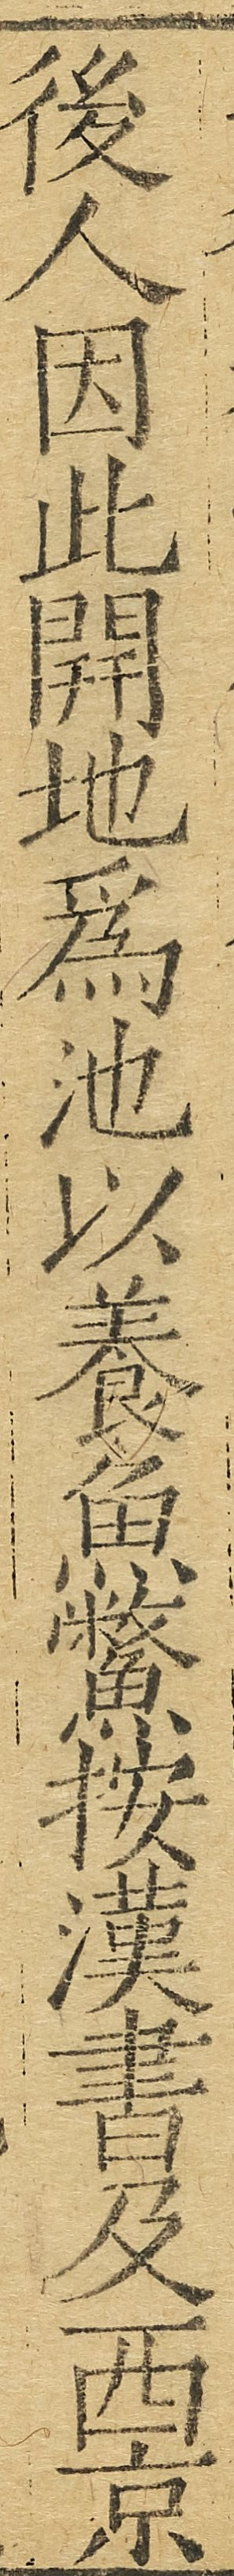後人因此開地為池以養魚鱉按漢書及西京
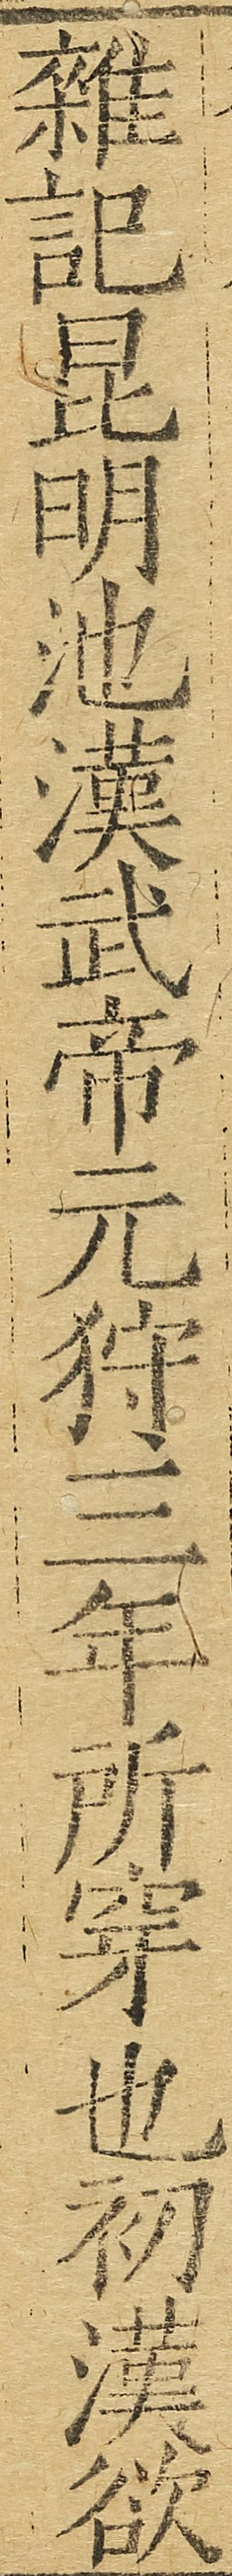雜記昆明池漢武帝元狩三年所穿也初漢欲
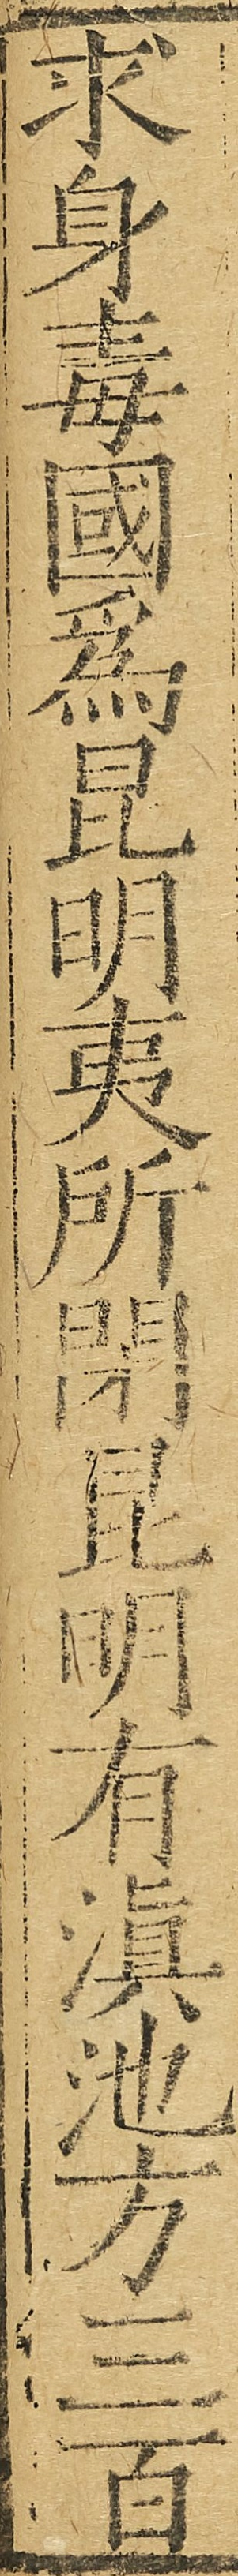求身毒國為昆明夷所閉昆明有滇池方三百
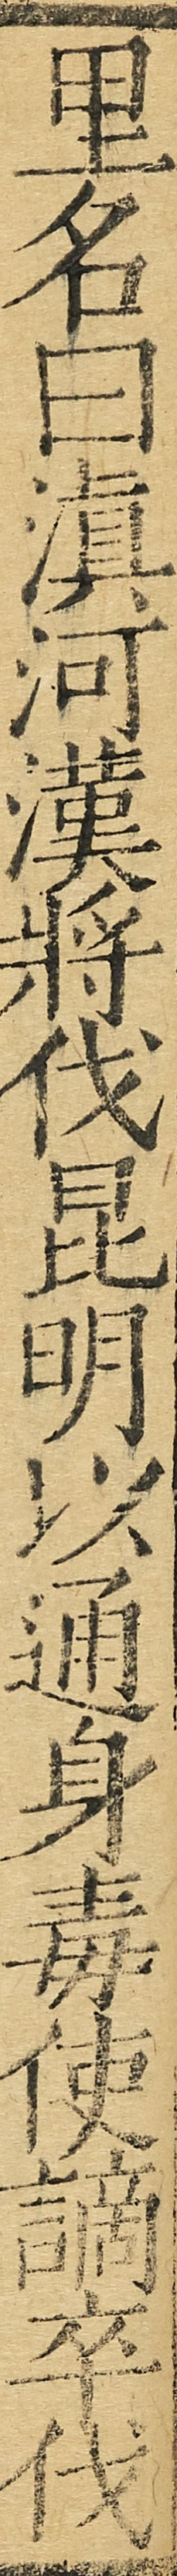里名曰滇河漢將伐昆明以通身毒使謫卒伐
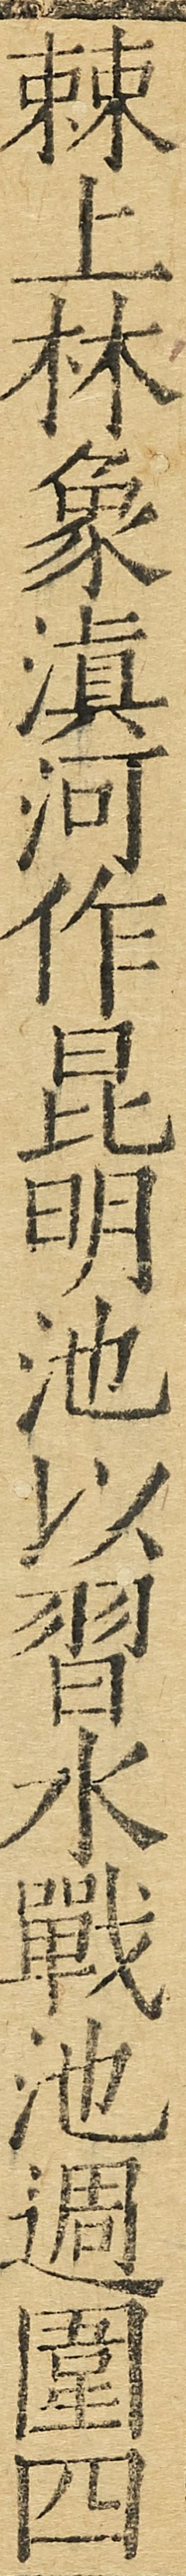棘上林象滇河作昆明池以習水戰池週圍四
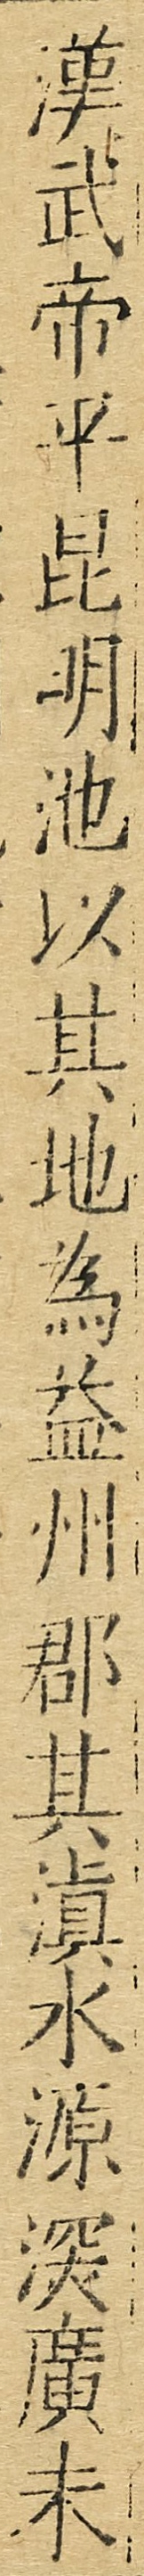漢武帝平昆明池以其地為益州郡其滇水源深廣末
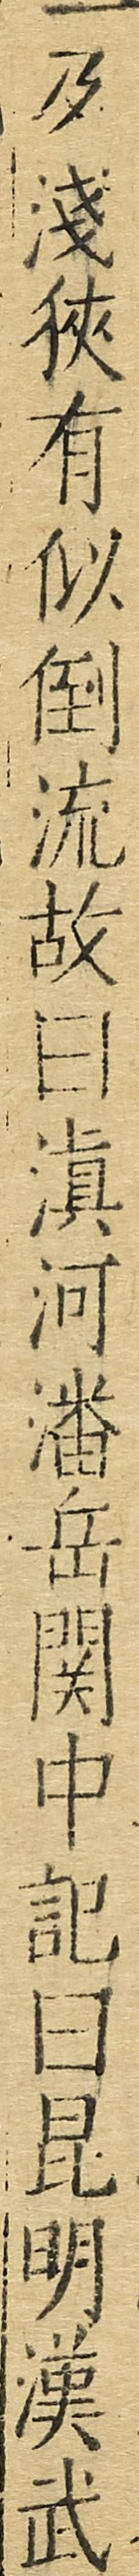及淺狹有似倒流故曰滇河潘岳関中記曰昆明漢武
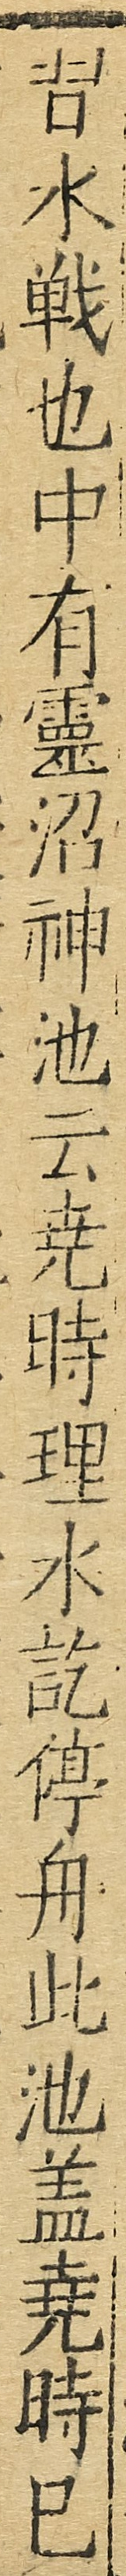習水戰也中有靈沼神池云堯時理水訖停舟此池蓋堯時已
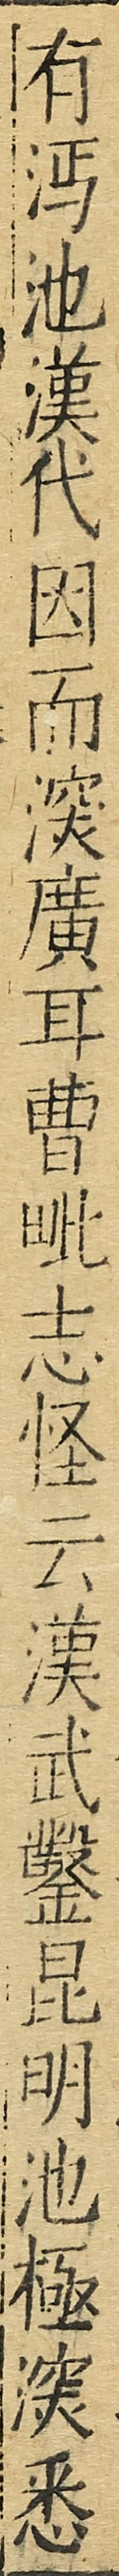有沔池漢代因而深廣耳曹毗志怪云漢武鑿昆明池極深悉
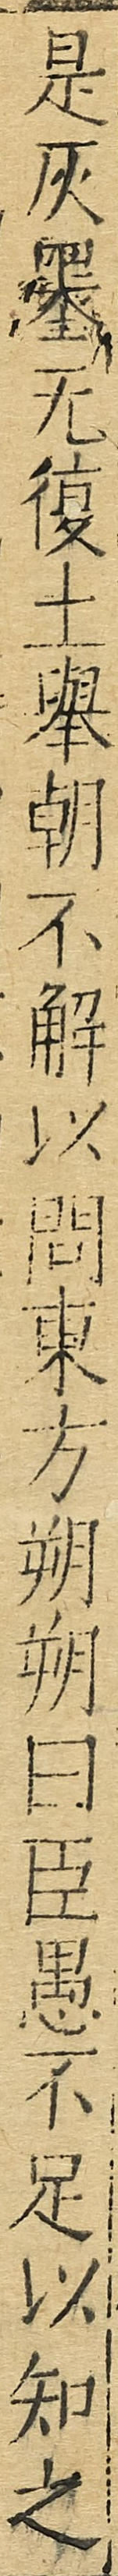是灰墨無復土舉朝不解以問東方朔朔曰臣愚不足以知之
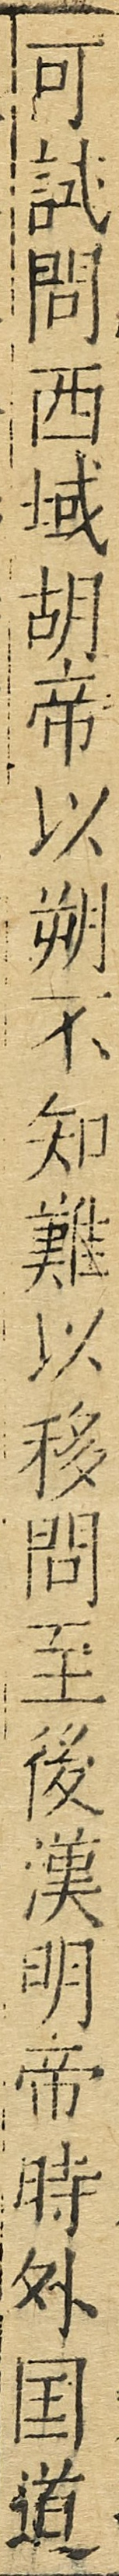可試問西域胡帝以朔不知難以移問至後漢明帝時外國道
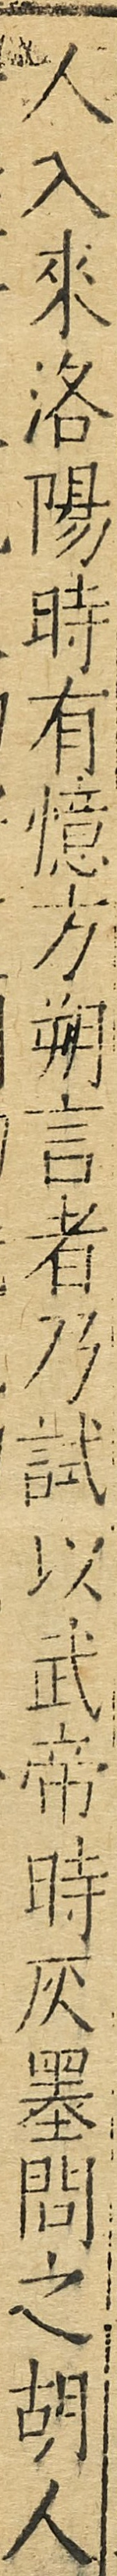人入來洛陽時有憶方朔言者乃試以武帝時灰墨問之胡人
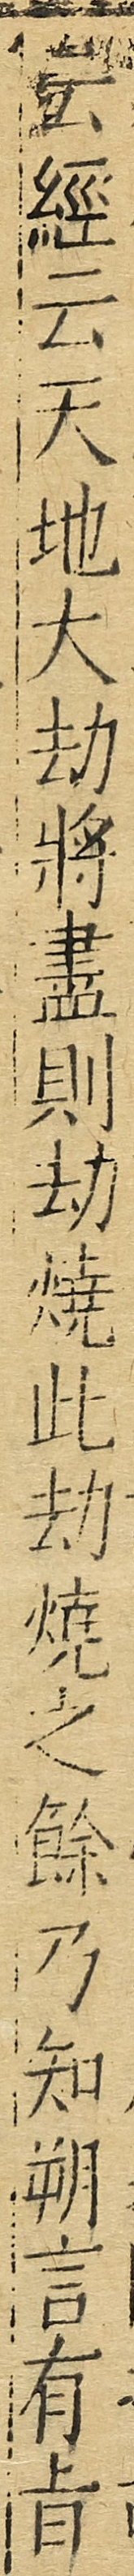云經云天地大劫將盡則劫燒此劫燒之餘乃知朔言有旨
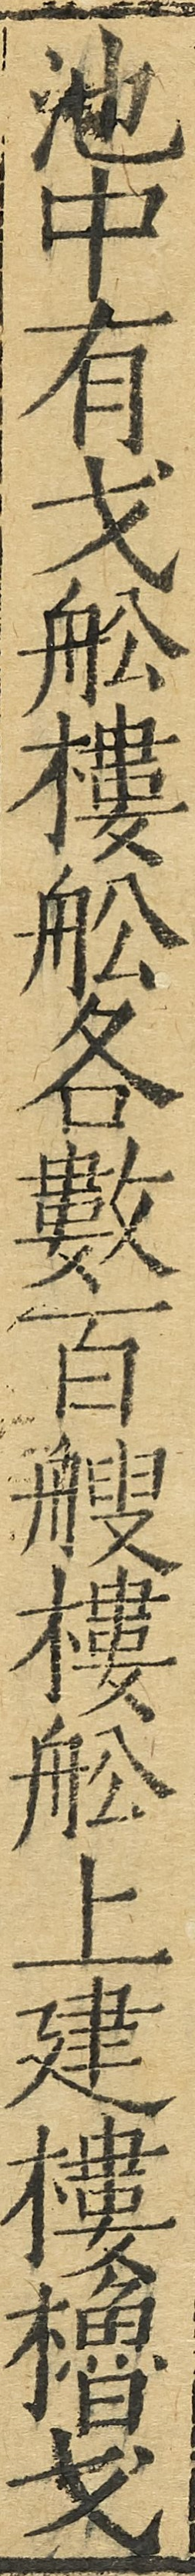池中有戈船樓船各數百艘樓船上建樓櫓戈
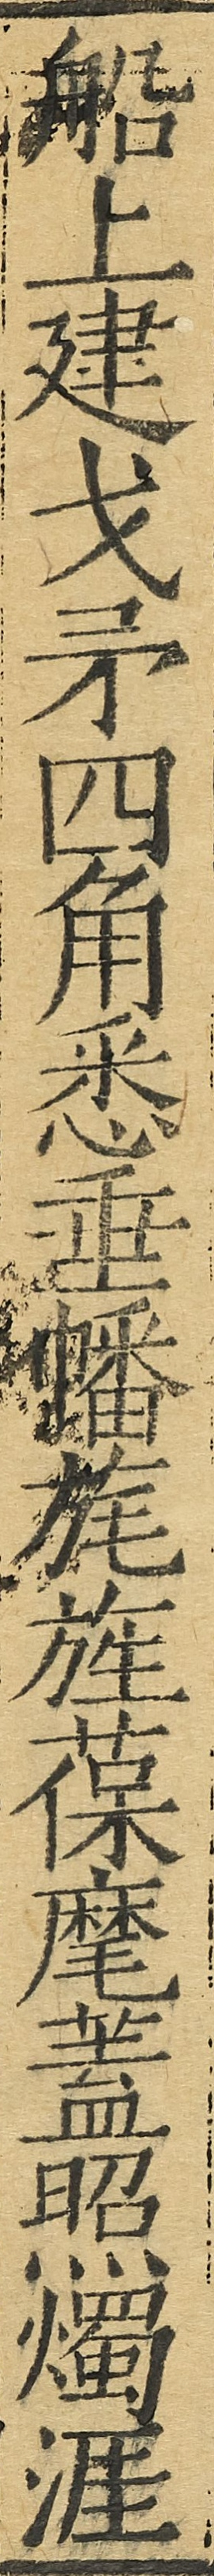船上建戈矛四角悉垂幡旄旌葆麾蓋照燭涯
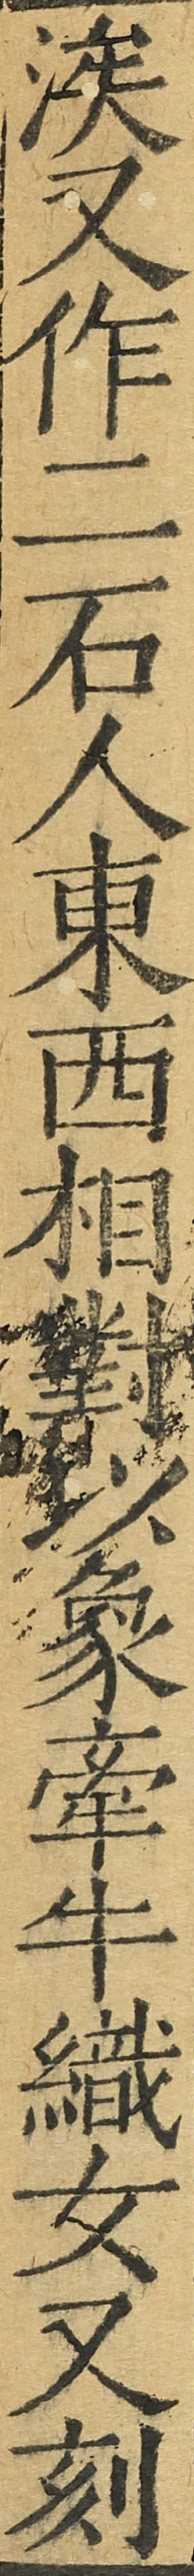涘又作二石人東西相對以象牽牛織女又刻
